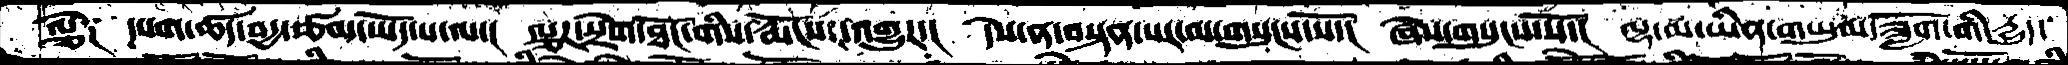ལྕེ༑  དཔག་ཚད་བདྱད་ཙམ་ཡོད་པ་ལ་།  ལྕཌ་སྲེག་ཐོང་གིས་རྨོངསར་འགྱུར་།  དེས་ན་བསྟན་པར་མ་གསུངས་སོ་།  ཞེས་གསུངས་སོ་།  ལྷ་མ་ཡིན་གཡུལ་ཟློག་གི་རྒྱུད་
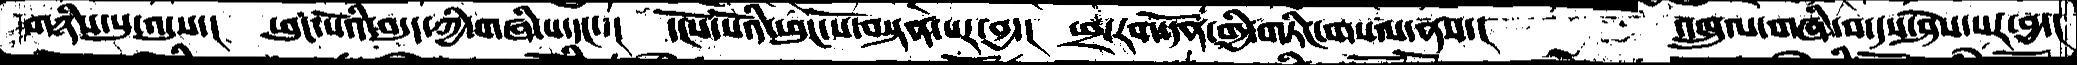གཉིས་སུ་འདུས་།  ཕུང་པོའི་བདུད་ཀྱི་གཞི་ས་དང་་།  དངོས་པོའི་ཕུང་པོ་བསྟན་པར་བྱ་།  ཕྲ་རབ་དོན་གྱི་གཏིང་གསལ་ནས་།    འཁྲུལ་གཞི་བ་དས་ཤེས་པར་བྱ་།
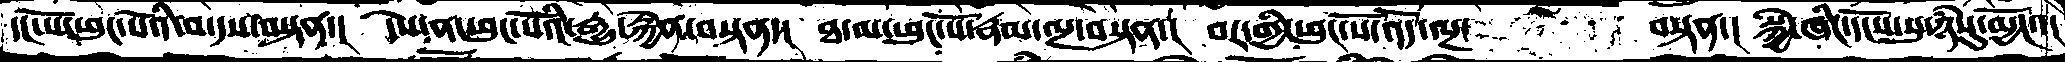དང་པོ་ཕུང་པོའི་བ་དས་བསྟན་།  དེས་ན་ཕུང་པོའི་རྒྱུ་རྐྱེན་བསྟན་།  ཐ་མ་ཕུང་པོ་རྣམ་ལྔ་བསྟན་།   བར་གྱི་ཕུང་པོ་འོད་ལྔ་     བསྟན་།  སྐྱེ་ཞིང་དངོས་སུ་ཉཾསུ་མྱོང་།
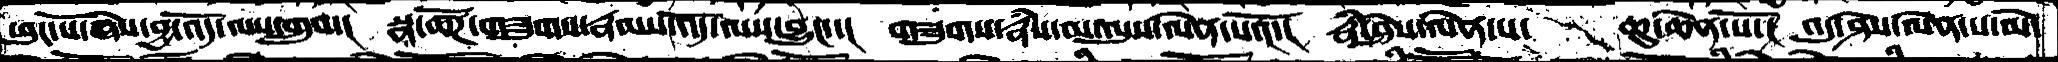ཕུང་པོ་ཞེས་བྱ་འོད་ལས་གྲུབ་།  སྣ་ཚོཌ་གཟུགས་རྣམས་འོད་ལས་བྱུང་།  གཟུགས་རྣཾས་མ་ལུས་ལེན་པའོ་།  རྣཾ་ཤེས་ལེན་པ་  ཆུ་ཆེན་པོ་།  འདུ་ཤེས་ལེན་པ་མེ་
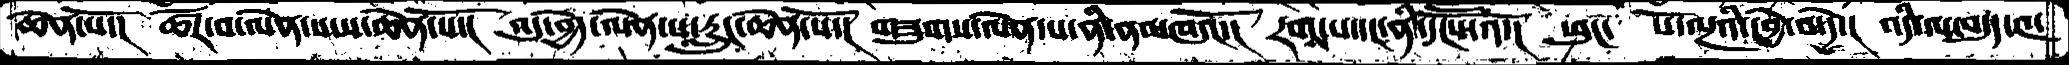ཆེན་པོ་།  ཚོར་བ་ལེན་པ་ས་ཆེན་པོ་།  འདུ་བྱེད་ལེན་པ་རླུང་ཆེན་པོ་།  གཟུགས་ལེན་པ་ནི་ནམཁའོ་།  རག་པ་དང་ནི་དངཽས་འོ་།  ཕུང་  པོ་ལྔའི་དབྱེ་བ་དེ་།  འདི་ལ་བདུད་༤་
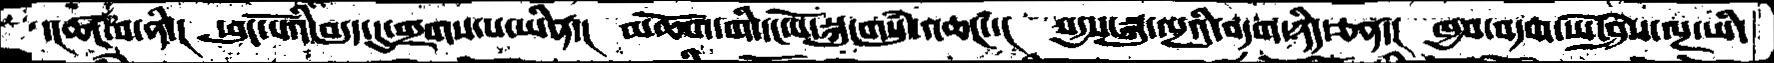་།ཚང་བ་ནི་།   ཕུང་པོའི་བདུད་དུ་གྲགས་པ་ཡིན་།  མཆོག་གི་དང་པོ་སྐུ་གསུཾ་འཆང་་།  སདྱས་སྐུ་ལྔའི་བདག་ཉིད་ཅན་།  ཁྱབ་བདག་ཡེ་ཤེས་ལྔ་ཡི་
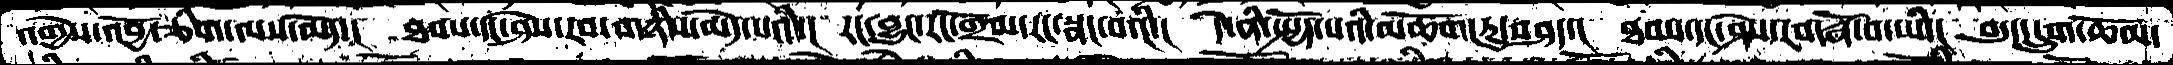འགྱེས་འབྱོ་ཅིག་ལས་མེད་།  ཐབས་དང་ཤེས་རབ་གཉིས་མེད་པའི་།  རང་བྱུང་རང་གྲོལ་རང་སྣང་བའི་།  ད་ེནི་སྤྱོད་པའི་མཆོག་ཏུ་བཤད་།  ཐབས་དང་ཤེས་རབ་རྣོ་བ་ཡི་།  བདུད་དྲུག་ཆོམ་
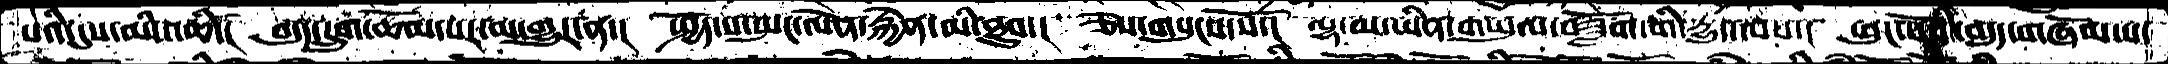པའི་དུས་མི་འཆི་། བདུད་དྲུག་ཆོམ་པར་མ་གྱུར་ན་།  སྤྱོད་པ་སྤང་ལེན་རྐྱེན་མི་ཐུབ་།  ཅེས་གསུངས་སོ་།  ལྷ་མ་ཡིན་གཡུལ་བཟློག་གི་རྒྱུད་ལས་།  ཕུང་པོའི་བདུད་གཞོམ་པ་
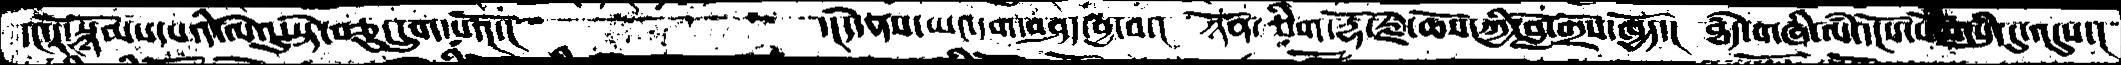་ང་རོ་སྙོམས་པའི་ལེའུ་སྟེ་བཅུ་དྲུག་པའོ་།      ་།དེ་ནས་ཡང་དག་བཤད་བྱ་བ་།  ཉོན་ཅིག་རྡོ་རྗེ་ཆོས་ཀྱི་བློ་གྲོས་ཁྱོད་།  ཐདཾ་གཞི་ལཾ་དངོས་པོ་གསུཾ་དུ་འདུས་།
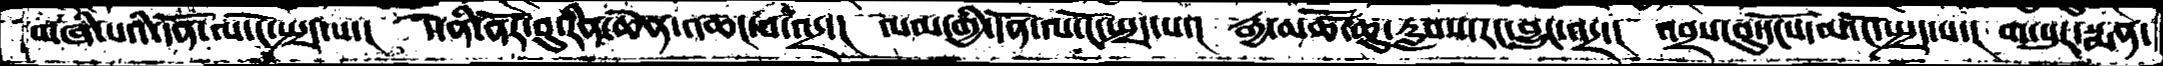གཞི་པའི་དོན་ངོ་སྤྲད་པ་།  དེ་ནི་ནོར་བུ་རིན་ཆེན་འཆང་བ་འདྲ་།  ལམ་གྱི་དོན་ལ་ངོ་སྤྲད་པ་།  རྒྱ་མཚོ་ཆུ་རླབས་རང་བྱུང་འདྲ་།  འབྲས་བུ་དངོས་མ་ངོ་སྤྲད་པ་།  ག་པུར་སྨན་
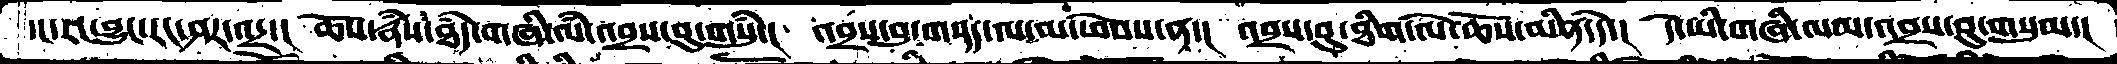དང་རང་བྱུང་རང་ཤར་འདྲ་།  ཆོས་རྣཾས་ཐདཾ་གཞི་ལཾ་འབྲས་བུ་གསུཾ་།  འབྲས་བུ་གནད་ལ་མ་ཕེབས་ན་།  འབྲས་བུ་ཐིག་ལེ་ཆོས་མིན་དེ་།།  དེ་ཡི་གཞི་ལམ་འབྲས་བུ་གསུམ་།
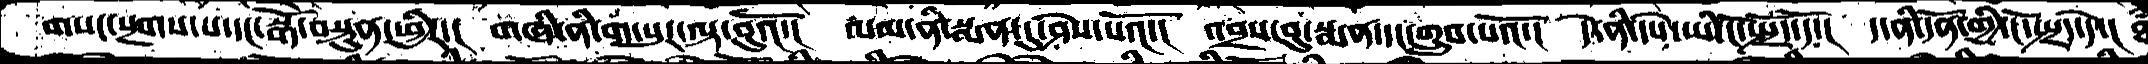གསང་སྔགས་པ་དང་སྒོ་བསྟུན་ཕྱིར་།  གཞི་ནི་ག་པུར་ལྟ་བུའོ་།  ལམ་ནི་སྨན་དུ་ཤེས་པའོ་།  འབྲས་བུ་སྨན་དང་གྲུབ་པའོ་།  དེ་ནི་དཔེ་ཡི་ངོ་སྤྲོད་དོ་།  ད་ནི་དོན་གྱི་ངོ་སྤྲད་དེ་།  ཐ
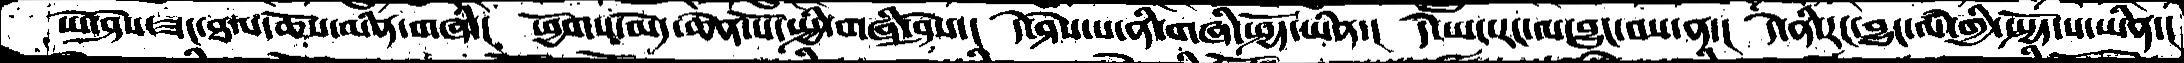ཡེ་ཤེས་ཟང་ཐལ་ཆོས་མིན་གཞི་།  ཕྱོགས་མེད་ཆེན་པོ་སྤྱི་གཞི་ཤེས་།  དེ་ཤེས་པ་ནི་གཞི་སྤྱོད་ཡིན་།  དེ་ཡང་རང་ལ་བྱུང་བས་ན་།  དེ་ནི་རང་བྱུང་ལཾ་གྱི་སྤྱོད་པ་ཡིན་།
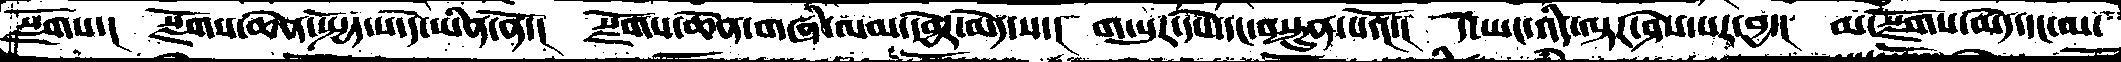སྫོགས་།  སྫོགས་ཆེན་སྤྱོད་པ་དེ་ཡིན་ནོ་།  སྫོགས་ཆེན་གཞི་ལམ་དབྱེར་མེད་པ་།  ག་པུར་དེས་དང་བསྟུན་པའོ་།  དེ་ཡང་འདི་ལྟར་ཤེས་པར་བྱ་།  མ་སྫོགས་མེད་དང་མ་
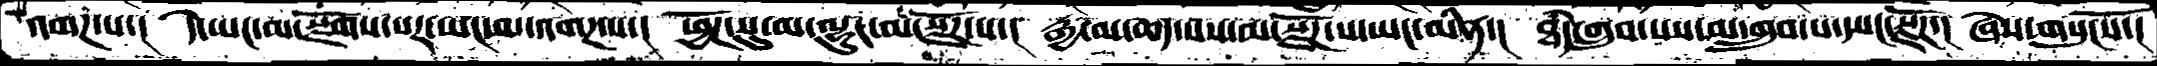འགཌ་པ་།  དེ་ཡང་མ་སྫོགས་པར་ཡང་མ་འགཌ་པ་།  ཕྱོཌ་སུ་མ་ལྷུང་མ་སྫོཌ་པ་།  རྒྱ་མ་ཆད་པས་མ་སྫོཌ་པ་ཡང་མིན་།  ཐཾད་གྲུབ་པས་མ་གྲུབ་པ་ཡང་སྫོཌ་།  ཞེས་གསུངསོ་།
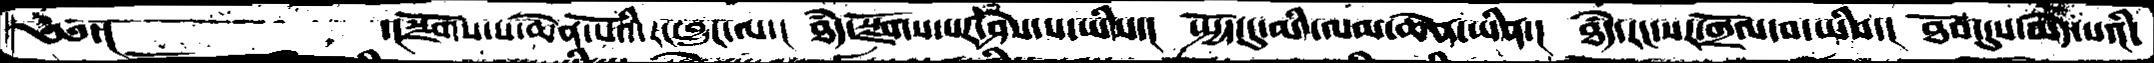༄༅་།        ་།སྫོགས་པ་ཆེན་པོའི་རང་བྱུང་ལ་།  ཐཾད་སྫོགས་པར་ཤེས་པ་ཡིས་།  སྤྱོད་དུ་མི་ལམ་ཆེན་ཡིན་།  ཐཾད་རང་སར་གྲོལ་བ་ཡིས་།  ཐོབ་དུས་མེད་པའི་
